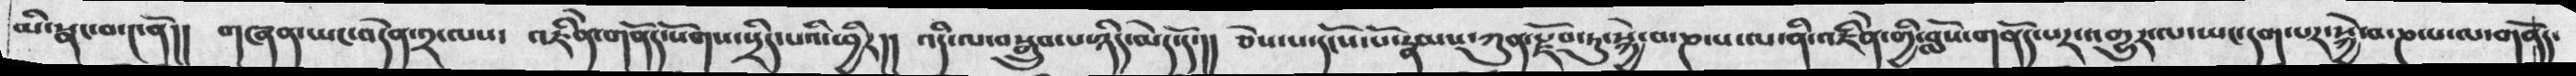མི་སྣང་བ་༤ནོ།།  གཞན་ཡང་བདེན་༢་ལས༴  འཇིེན་གནོད་སོགས་སྲིད་པའི་ཕྱིར།།  འདི་ལ་བསྒྲུབ་པ་ཉིད་མེད་དོ་།།  ཅེས་པ་དངོས་པོ་རྣམས་ཀུན་རྫོབ་ཏུ་སྐྱེ་བ་ཎ་པ་ལ་ནི་འཇིེན་གྱི་བློས་གནོད་པར་འགྱུར་ལ་ཡང་དག་པར་སྐྱེ་བ་ཎ་པ་ལ་གནོད་
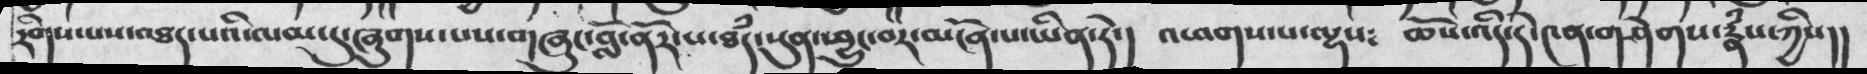རིགས་པས་འཐད་པའི་ལམ་དུ་ཞུགས་པས་གཞུང་བློ་ནོར་པ་ཐཾད་སུན་ཕྱུང་བར་མངོན་པ་ཡིན་ཏེ་།།  འཕགས་པ་ལྷས༴   ཆོས་འདི་དེ་༤ན་གཤེགས་རྣཾས་ཀྱིས།།
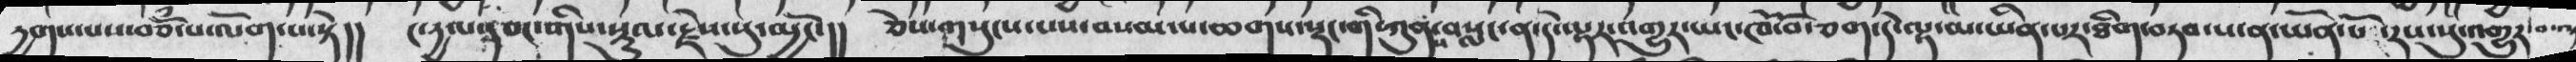དྱགས་པས་བཅོཾ་པ་ལོག་པ་སྟེ།།  ང་དྱལ་དབང་གིས་སྡུལ་རྗེས་སུ་མྱོང་།།   ཅེས་གསུངས་པས་བསམ་པ་ཆགས་སྡང་གི་ཀུནས་བསླང་ན་དེ་ལྟར་འགྱུར་ཡང་ཁོ་བོ་ཅན་དེ་ལྟ་མ་ཡིན་པར་ཐིག་བཏབ་པ་ན་ཡོན་པོ་རས་སུ་འགྱུར་བས་
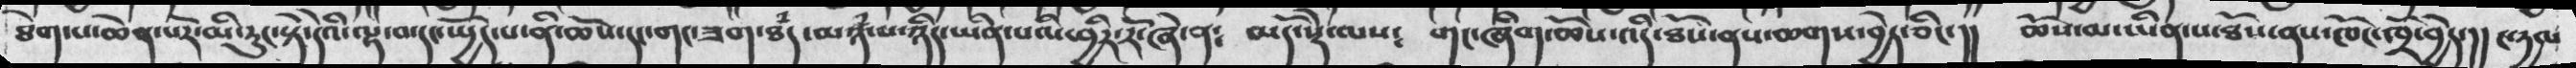ཐེག་པ་ཆེན་པོར་མི་རུང་སྟེ་དེའི་ལྟ་བ་དང་ཡྱོད་པ་ནི་ཆོས་དང་གང་ཟག་ཐཾད་མཉཾ་པ་ཉིད་ཡིན་པ་མི་ཕྱིར་རོ་ཞེ་ན༴   མདོ་སྡེ་ལས༴   གང་ཞིག་ཆོས་འདི་ཐོས་ནས་ཆགས་བྱེད་ཅིང་།།  ཆོས་མ་ཡིན་པ་ཐོས་ནས་ཁོང་ཁྲོ་བྱེད་།།   ཁྱམ
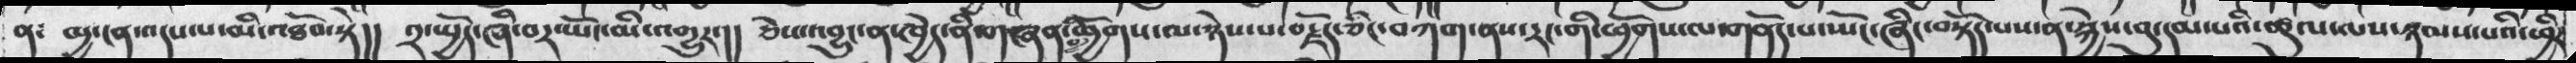ན༴  མྱ་ངན་འདས་པ་མི་འཐོབ་སྟེ།།  ༢་སྤྱོད་ཞི་བར་སྤོང་མི་འགྱུར་།།  ཅེས་འབྱུང་ན་ཁྱེད་ནི་གཞན་གྱི་ཕྱོགས་ལ་ཉེས་པ་བརྗོད་ཅིང་བཀག་ནས་རང་གི་ཕྱོགས་ལ་གནོད་པ་སྤོང་ཞིང་བསྟོད་པས་ན་སྐྱེས་བུ་དམ་པའི་ཚུལ་ལས་ཉམས་པའི་ཕྱིར
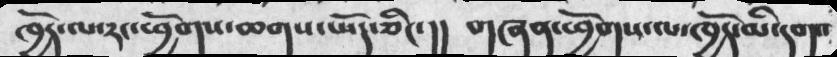ཁྱོད་ལ་རང་ཕྱོགས་ཆགས་ཡོད་ཅིང་།།   གཞན་ཕྱོགས་ལ་ཁྱོད་མི་དགའ
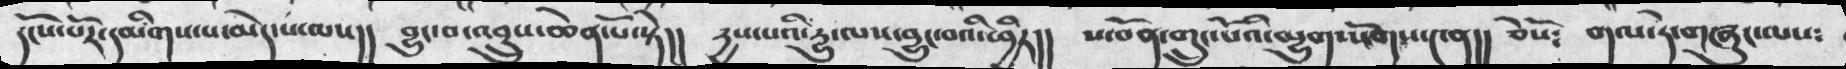དངོས་པཔོར་དམིགས་པ་མེད་པ་ལས།།  བྱུང་བ་འབྲུས་ཆེན་པོ་སྟེ།།   དྱས་པའི་དྱུ་ལས་བྱུང་བའི་ཕྱིར།།  ས་བོན་གྲུང་པོའི་མྱུག་སོགས་༤ན།།  ཅེསོ༴  གལ་ཏེ་གཞུང་ལས༴
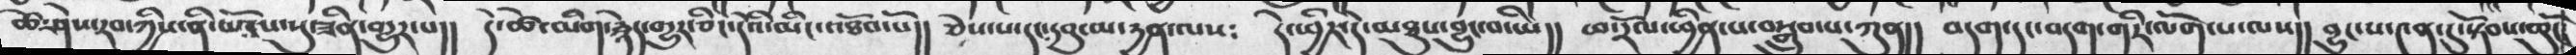ཚེ་ཤེས་རབ་ཀྱིས་ནི་ཡོངས་སུ་ཟིན་གྱུར་པ།།   དེ་ཚེ་མིག་རྙེད་གྱུར་ཅིང་དེའི་མིང་འཐོབ་སོ།།  ཅེས་པ་དང་དབུ་མ་དྱན་ལས༴   དེ་ཕྱིར་དེ་མཐུ་འབྱུང་བ་ཡིན།།    ཕ་རོལ་ཕྱིན་པ་བསྒྲུབ་པ་ཀུན།།    བདག་དང་བདག་གིར་ལོག་པ་ལས།།   བྱུང་པ་༤ན་དུ་སྟོབས་ཆུངོ་
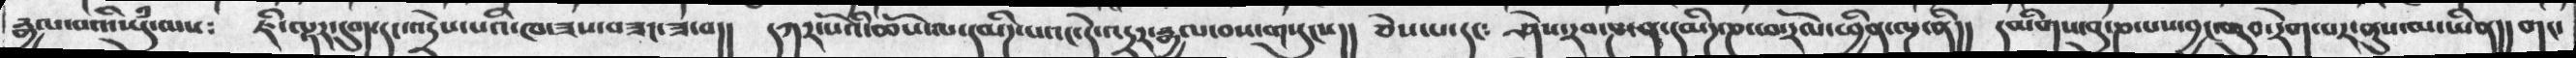རྒྱལ་པའི་ཡུཾ་ལས༴   ཇི་ལྟར་དུག་དང་འདྲེས་པའི་ཁ་ཟས་བཟང་ཟ་བ།།  དཀར་པོའི་ཆོས་ལ་དམིཌ་པའང་དེ་འདྲེར་རྒྱལ་བས་གསུངས།།  ཅེས་པ་དང༴   ཤེས་རབ་ཎ་ན་དམིཌ་ཎ་ཕ་རོལ་ཕྱིན་ལྔ་ནི།།   དམིགས་བུ་ཎ་པས་བྱང་ཆུབ་རེག་པར་ནུས་མ་ཡིན།།  གང་
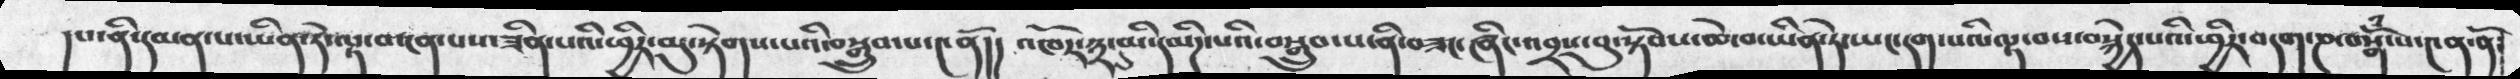།པ་ནི་དམན་པ་ཡིན་ཏེ་ལྟ་བ་ངན་པས་ཟིན་པའི་ཕྱིར་མུ་སྟེགས་པའི་བསྒྲུབ་པ་༤ནོ།།  འཁོར་༣་དུ་མི་དམིཌ་པའི་བསྒྲུབ་པ་ནི་བཟང་ཞིང་འབྲས་བུ་སྟོབས་ཆེ་བ་ཡིན་ཏེ་ཡང་དག་པའི་ལྟ་བས་བསྐྱེད་པའི་ཕྱིར་བདག་ཎ་བསྒོཾ་པ་༤ན་ནོ༴
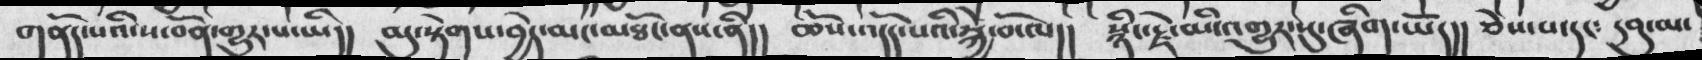གནོད་པའི་ས་བོན་གྱུར་པ་ཡི།།   མུ་སྟེགས་བྱེད་མང་མཐོང་ནས་ནི།།   ཆོས་འདོད་པའི་སྐྱེ་བོ་ལ།།   སྙིང་རྗེ་མི་འགྱུར་སུ་ཞིག་ཡོད།།   ཅེས་པ་དང༴   དབུ་མ་
